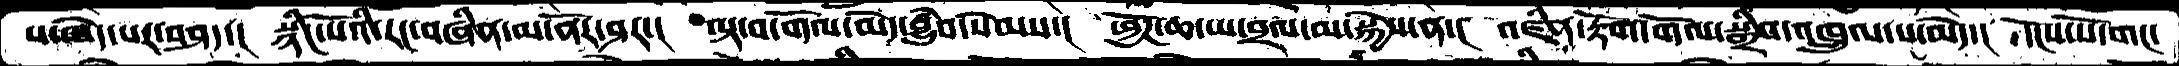པ་ཞེད་པར་བཤད་།  སྙིང་པོའི་རང་བཞིན་མ་ནོར་ཤར་།  ལྟ་བ་གོལ་མེད་བྱུཾབ་སེམས་།  ཕྱོཌ་ཆ་ཡ་བྲལ་མ་སྐྱེས་ན་།  འཛིན་རྟོག་གོལ་སྒྲིབ་འཁྲུལ་པ་མེད་།  དངོས་པོ་གང་
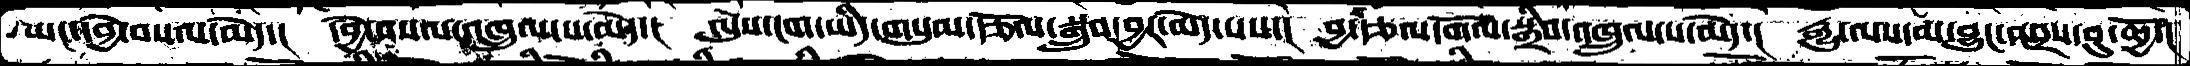ཡང་དབྱེ་བསལ་མེད་།  དབྱེ་བསལ་འཁྲུལ་པ་མེད་།  ལུས་ངག་ཡིད་གསུམ་རྩོལ་སྒྲུབ་བྱར་མེད་པས་།  བྱ་རྩལ་གོལ་སྒྲིབ་འཁྲུལ་པ་མེད་།  རྒྱུ་ལས་མ་བྱུང་འབྲས་བུ་ཆྱོ་།
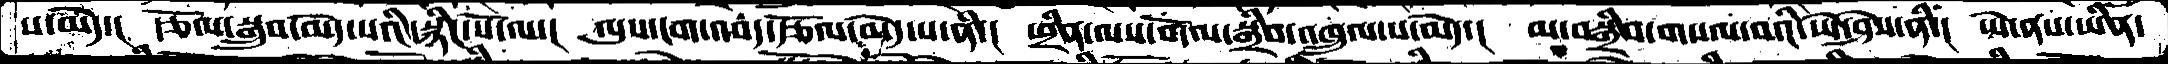པ་མེད་།  རྩོལ་སྒྲུབ་མེད་པའི་སྙིང་པོ་ལ་།  ལུས་ངག་འབད་རྩོལ་མེད་པ་ནི་།  ཕྲིན་ལས་གོལ་སྒྲིབ་འཁྲུལ་པ་མེད་།  མ་བསྒྲིབ་གསལ་བའི་ཡེ་ཤེས་ནི་།  ཡེ་ནས་ཡིན་
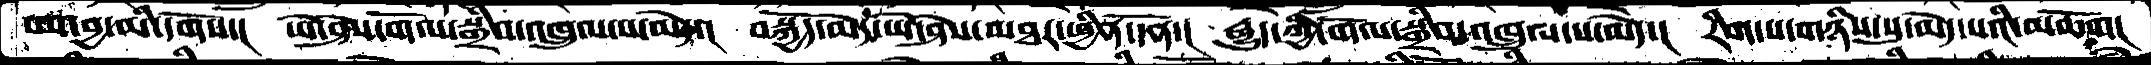པས་བྱ་མི་དགོས་།   ཡེ་ཤེས་གོལ་སྒྲིབ་འཁྲུལ་པ་མེད་།  བསྐྱོད་མེད་ཡེ་ཤེས་མཐར་ཕྱིན་དོན་།  རྒྱུད་ཀྱི་གོལ་སྒྲིབ་འཁྲུལ་པ་མེད་།  རིག་པ་གཉིས་སུ་མེད་པའི་མཆོག།
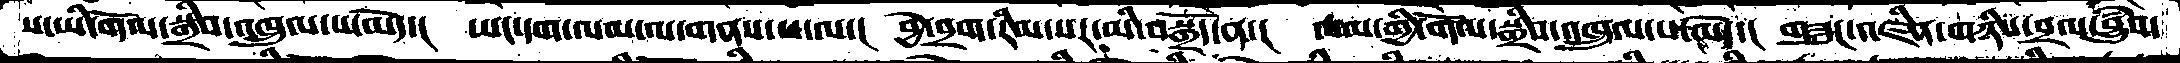ས་ཡི་གོལ་སྒྲིབ་འཁྲུལ་པ་མེད་།  ཡང་དག་ལམ་ལ་གནས་པ་ལ་།  བྱེ་བྲག་རིམ་པར་མི་བསྒྲོད་ན་།  རྩལ་གྱི་གོལ་སྒྲིབ་འཁྲུལ་པ་མེད་།  གཟུང་འཛིན་གཉིས་བྲལ་བྱུཾབ་
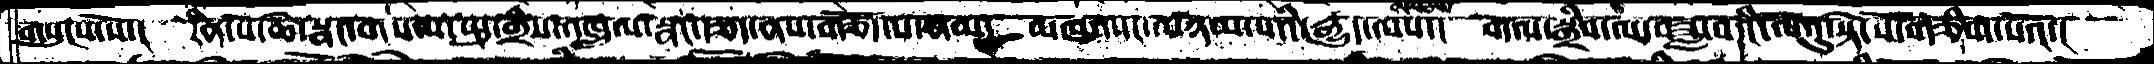གསུངས་སོ་།  རིན་པོ་ཆེ་སྣང་གསལ་སྤུ་གྲིས་འཁྲུལ་སྣང་རྩད་ནས་གཅོད་པ་རྣམ།  མཁའ་དང་མཉམ་པའི་རྒྱུད་ལས་།  གོལ་སྒྲིབ་ལ་བཟླ་བའི་ལེའུ་སྟེ་སོ་གཅིག་པའོ་།
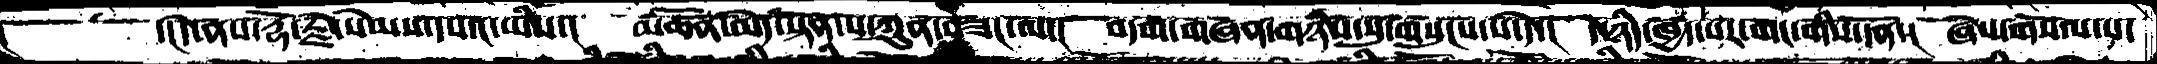་།དེ་ནས་རྡོ་རྗེ་སེམས་དཔའ་ཡིས་།  མཚོན་མེད་སྟོན་པ་ཀུན་བཟང་ལ་།  བདག་གཞན་གཉིས་སུ་གསུངས་པ་དེ་།  དེ་ཉིད་ཁྱད་པར་གང་གིས་དོན་།  ཞེས་གསོལ་པ་
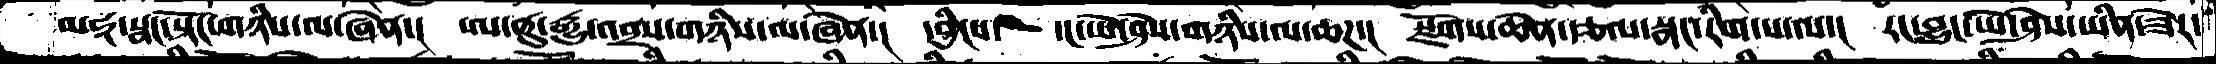མཧཱ་སྣང་སྟོང་གཉིས་ལ་ཞེན་།  ཨ་ནུ་རྒྱུ་འབྲས་གཉིས་ལ་ཞེན་།  དབྱིངས་  དང་ཡེ་ཤེས་གཉིས་ལ་ཆཌ་།  སྫོགས་ཆེན་རྩལ་སྣང་རིག་པ་ལ་།  རང་བྱུང་ཡེ་ཤེས་ཡིན་ཟེར་
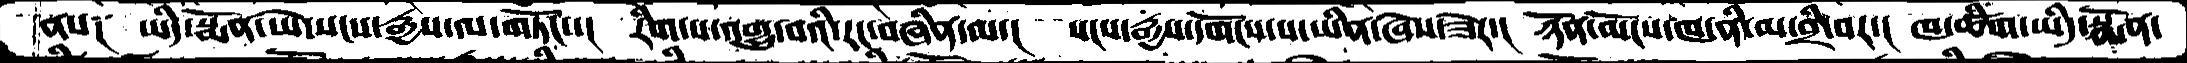ནས།  ཡིད་སྨོན་ཡེ་སངས་རྒྱས་ལ་གཏོང་་།  རིག་པ་འགྱུ་བའི་རང་བཞིན་ལ་།  སངས་རྒྱས་དགོངས་པ་ཡིན་ཞེས་ཟེར་།  ཉོན་མོངས་ཁ་ནི་མ་བྲི་བར་།  ཁ་ཚིག་ཡིད་སྨོན་
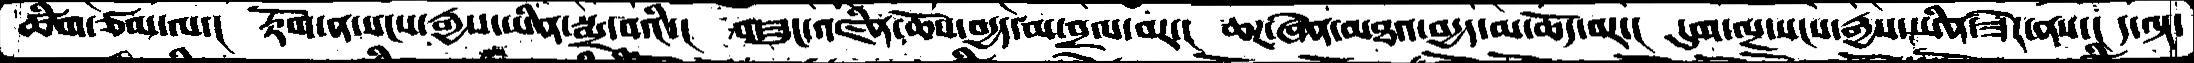ཚིག་ཙམ་ལ་།  རྟོག་ན་སངས་རྒྱས་ཡིན་སྨྲ་བའི་།  གཟུང་འཛིན་ཆོས་བདྱད་མ་བྲལ་བར་།  ཆཌ་ཞེན་མཐའ་བདྱད་མ་ཆོད་བར་།  དུག་ལྔ་སངས་རྒྱས་ཡིན་ཟེར་ནས་།  ད་ལྟ་
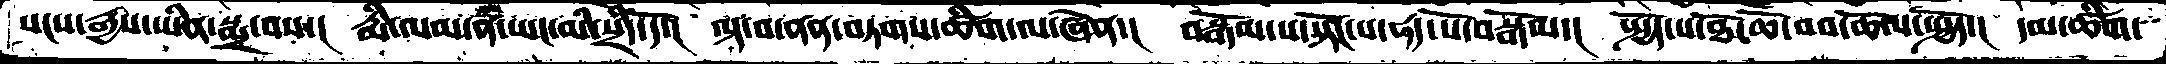སངས་རྒྱས་ཡིན་སྨྲ་བས་།  རྨི་ལམ་ནཾ་ཡང་མི་སྲིད་དོ་།  ལྟ་བ་ནན་བཏགས་ཚིག་ལ་ཞེན་།  བསྒོམ་པ་སྟོང་པ་ཧད་པོ་བསྒོམ་།  སྤྱོད་པ་ཐོ་ཆོ་བབ་ཆོལ་སྤྱོད་།  དམ་ཚིག་
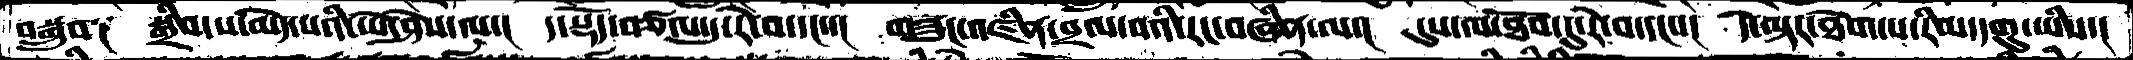བསྒྲུབ༑  སྒྲིབ་པ་མེད་པའི་ཡེ་ཤེས་ལ་།  ད་སྡོད་བཙལ་དུ་རེ་བ་དངས་།  གཟུང་འཛིན་བྲལ་བའི་རང་བཞིན་ལ་།  དུས་ལ་ཐོབ་དུ་རེ་བ་དངས།  དེ་ལྟར་ཐེག་པ་རིམ་དགུ་ཡིས་།
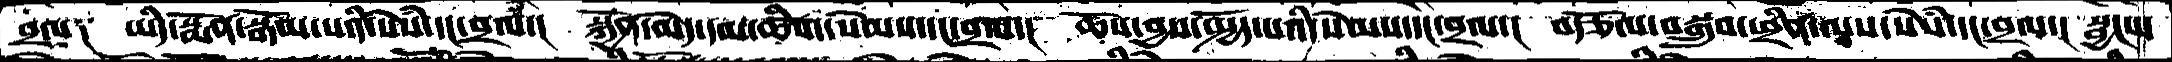བྲལ།  ཡིད་སྨོན་སྒོམ་པའི་སེཾས་དང་བྲལ་།  སྐྱོན་མེད་དམ་ཚིག་སེམས་དང་བྲལ་།  ཆོས་བྱས་སྤྱོད་པའི་སེམས་དང་བྲལ་།  བརྩོལ་བསྒྲུབ་ཕྲིན་ལས་སེཾས་དང་བྲལ་།  སྦྱངས་
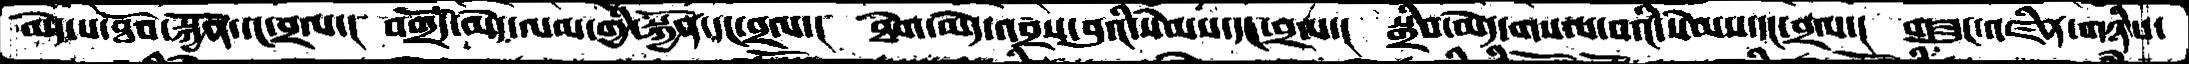མེད་པ་ཐོབ་སྐྱོན་དང་བྲལ་།  བགྲོད་མེད་ལམ་གྱི་སྐྱོན་དང་བྲལ་།  ཐེག་མེད་འབྲས་བུའི་སེམས་དང་བྲལ་།  སྒྲིབ་མེད་གསལ་བའི་སེམས་དང་བྲལ་།  གཟུང་འཛིན་གཉིས་
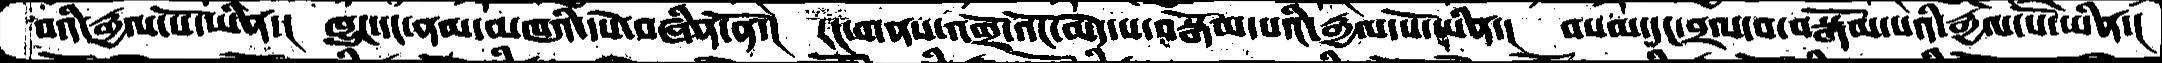བའི་རྒྱལ་པོ་ཡིན་།  ཁྱུང་དང་ནམ་མཁའི་དཔེ་བཞིན་ནོ་།  རང་གནས་འགྲོ་འོང་མེད་པ་བསྒོམ་པའི་རྒྱལ་པོ་ཡིན་།  བསམ་དང་བྲལ་བ་བསྒོམ་པའི་རྒྱལ་པོ་ཡིན་།
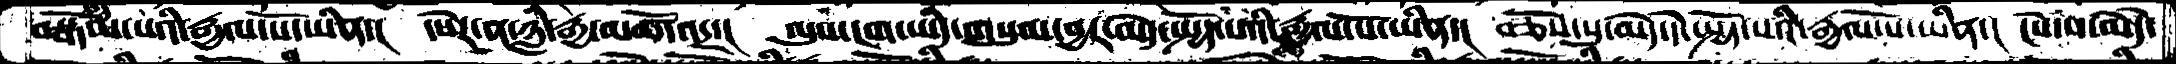བསྒོམ་པའི་རྒྱལ་པོ་ཡིན་།  དཔེར་ན་ཉླི་རྒྱ་མཚོ་འདྲ་།  ལུས་ངག་ཡིད་གསུམ་བྱར་མེད་སྤྱོད་པའི་རྒྱལ་པོ་ཡིན་།  བཅོས་སུ་མེད་དེ་སྤྱོད་པའི་རྒྱལ་པོ་ཡིན་།  ངེས་པ་མེདེ་
